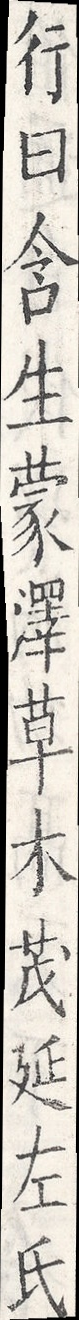行曰含生蒙澤草木茂延左氏
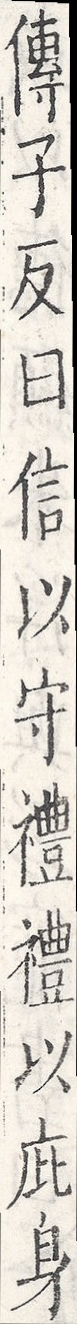傳子反曰信以守禮禮以庇身
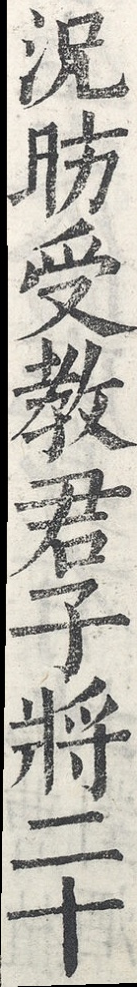況昉受教君子將二十
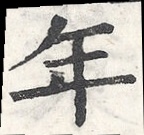年
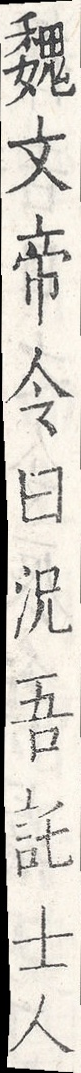魏文帝令曰況吾託士人
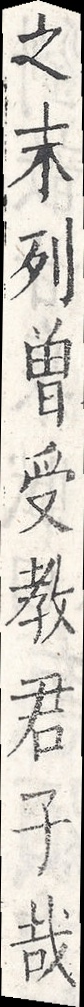之末列曾受教君子哉
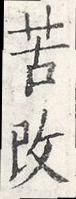苦改
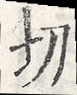切
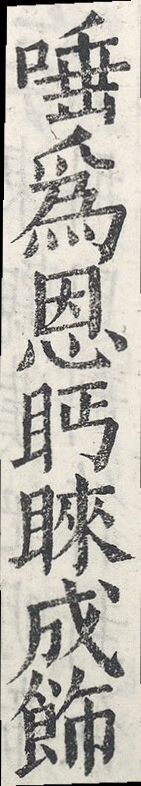唾為恩眄睞成飾
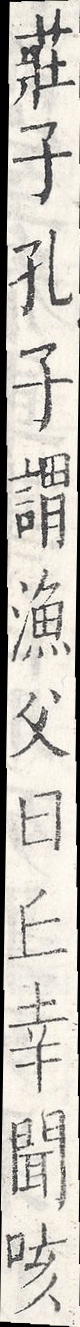莊子孔子謂漁父曰丘幸聞咳
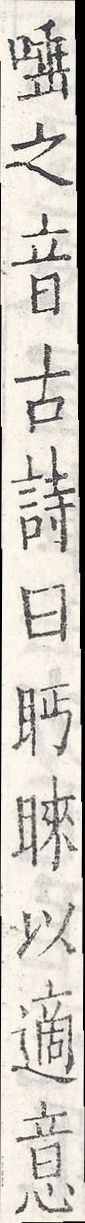唾之音古詩曰眄睞以適意
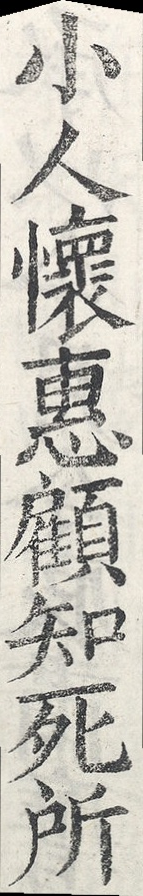小人懷惠顧知死所
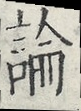論
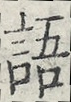語
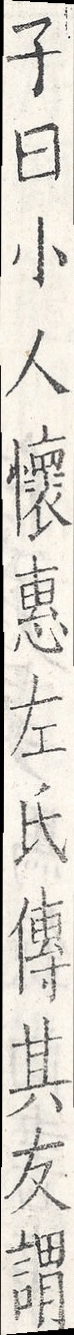子曰小人懷惠左氏傳其友謂
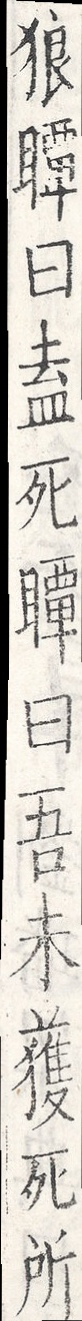狼瞫曰盍死瞫曰吾未獲死所
